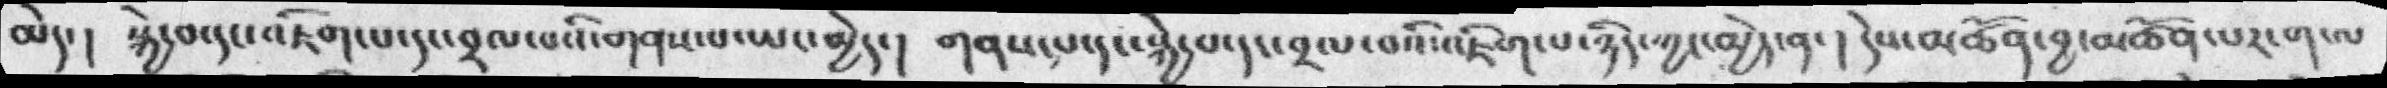མེད་།  སྐྱེ་བ་དང་འཇིག་པ་དང་བྲལ་པའི་གནས་པ་ཡང་མྱེད་།  གནས་པ་དང་སྐྱེ་བ་དང་བྲལ་བའི་འཇིག་པ་ཉིད་ཀྱང་མྱེད་ན་། དེས་མཚོན་བྱ་མཚོན་པར་ག་ལ
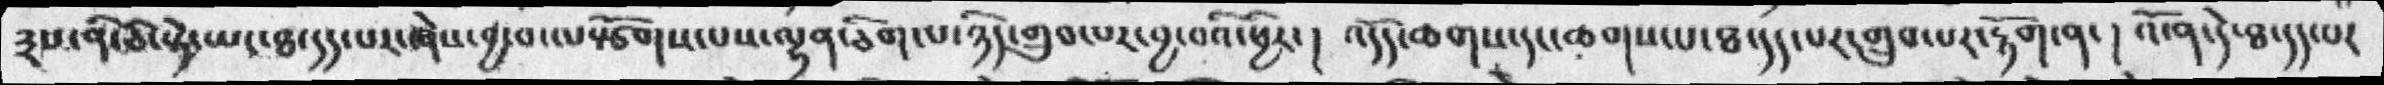༣པ་ནི་ཅི་སྟེ་ཡང་ཐ་དད་པར་ཞེས་བྱ་བ་ལསྩོགས་པས་ལྷན་ཅིག་པ་ཉིད་གྲུབ་པར་བྱ་བའི་ཕྱིར་།  འདོད་ཆགས་དང་ཆགས་པ་ཐ་དད་པར་གྲུབ་པར་རྟོག་ན་།  འོ་ན་དེ་ཐ་དད་པར
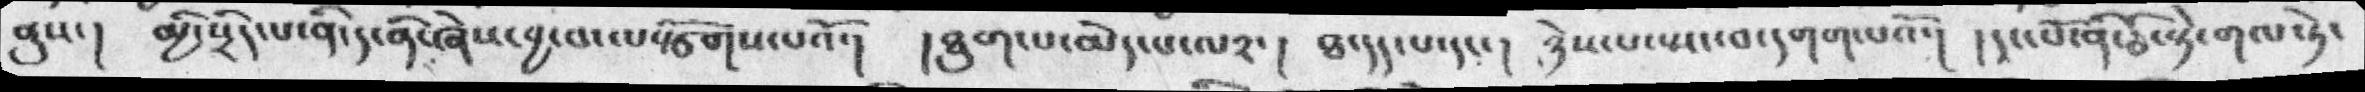ནུས་།  མྱི་སྲིད་པ་ནི་ད་ནི་ཞེས་བྱ་བ་ལསྩོགས་པའོ་།  །ཐུག་པ་མེད་པ་ལ༢་།  ཐ་དད་པ་དང་།  ཉེས་པ་སྤང་བ་དགག་པའོ་།  །དང་པོ་ནི་ཅི་སྟེ་གལ་ཏེ་
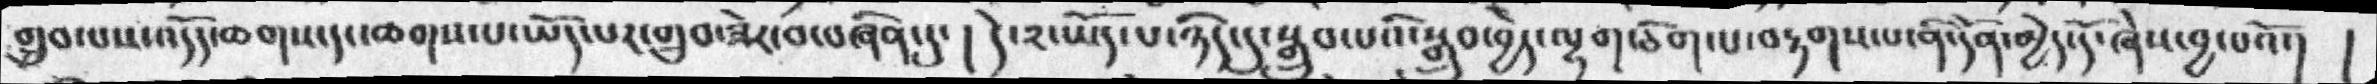གྲུབ་པས་འདོད་ཆགས་དང་ཆགས་པ་ཡོད་པར་གྲུབ་ཟེར་བ་བཞིན་དུ་ ། དེ་༢་ཡོད་པ་ཉིད་དུ་སྒྲུབ་པའི་སྒྲུབ་བྱེད་ལྷག་ཅིག་པ་བརྟགས་པ་ནི་དོན་མྱེད་དོ་ཞེས་བྱ་བའོ་།  །
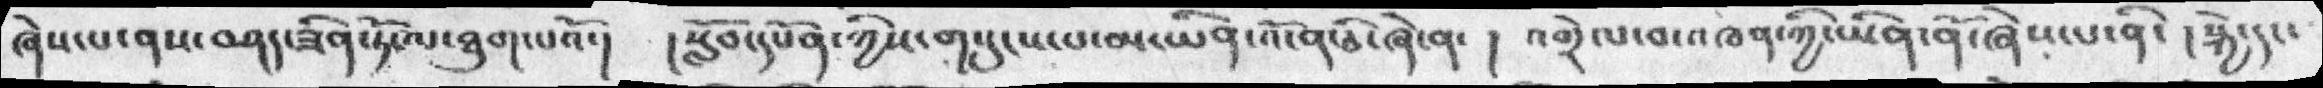ཞེས་པ་ནས་བཤད་ཟིན་ཏོ་ལ་ཐུག་པའོ་།   །སློབ་དཔོན་ཀྱིས་གསུངས་པ་མ་ཡིན་འོ་ན་ཅི་ཞེ་ན་  ། འགྲེལ་བ་འཁན་ཀྱི་ཡིན་ནོ་ཞེས་པ་ནི་ ། སྐྱེ་དང་
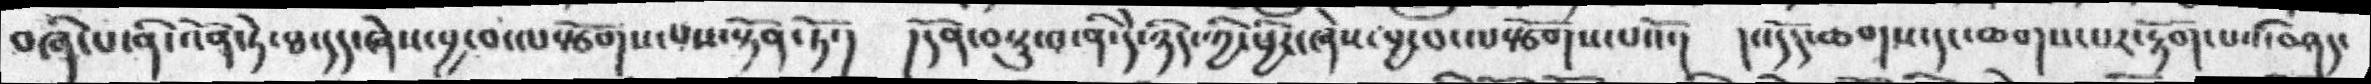བཞི་པ་ནི་འོན་ཏེ་ཐ་དད་ཞེས་བྱ་བ་ལསྩོགས་པས་སྟོན་ཏོ་།    །དོན་བསྡུ་བ་ནི་དེ་ཉིད་ཀྱི་ཕྱིར་ཞེས་བྱ་བ་ལསྩོགས་པའོ་།  །འདོད་ཆགས་དང་ཆགས་པར་རྟོག་པའི་བཤད་
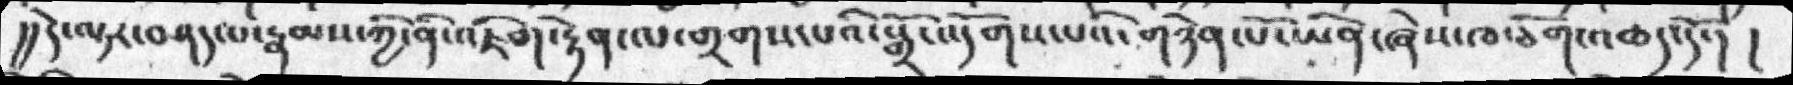།།དེ་ལྟར་བཤད་པ་རྣམས་ཀྱི་ནི་འཇིག་རྟེན་ལ་གྲགས་པའི་སྒྲོ་འདོགས་པའི་གཉེན་པོ་ཡིན་ཞེས་ཁ་ཅིག་འཆད་དོ་། །
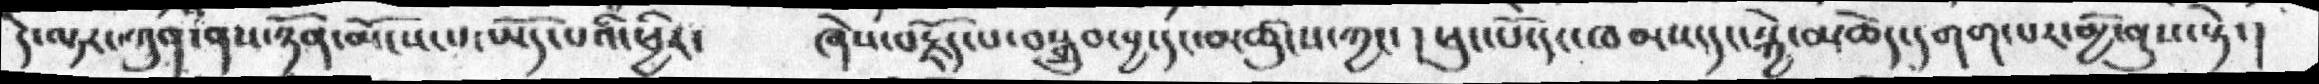དེ་ལྟར་ཀུན་ནས་ཉོན་མོངས་པ་ཡོད་པའི་ཕྱིར་  ཞེས་བརྗོད་པ་བསྒྲུབ་བྱ་དང་མཚུངས་ཀྱང་ །  ཕུང་པོ་དང་ཁམས་དང་སྐྱེ་མཆེད་དགག་པར་མྱི་ནུས་སྟེ་།
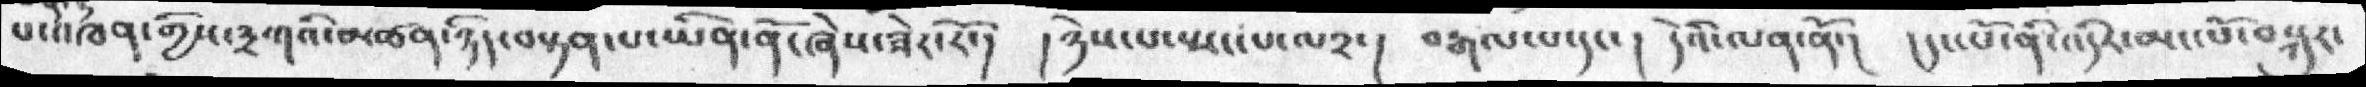པ་འཁན་གྱིས་༣གའི་མཚན་ཉིད་བསྟན་པ་ཡིན་ནོ་ཞེས་ཟེར་རོ་།  ། ཉེས་པ་སྤང་པ་ལ༢་།  བརྒལ་པ་དང་།  དེའི་ལན་ནོ་།  །དང་པོ་ནི་འདིར་མང་པོ་བསྐུར་
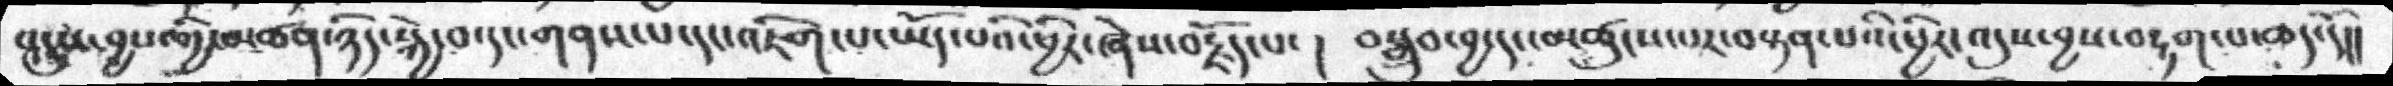འདུས་བྱས་གྱི་མཚན་ཉིད་སྐྱེ་བ་དང་གནས་པ་དང་འཇིག་པ་ཡོད་པའི་ཕྱིར་ཞེས་བརྗོད་པ་ །  བསྒྲུབ་བྱ་དང་མཚུངས་པར་བསྟན་པའི་ཕྱིར་འདུས་བྱས་བརྟག་པ་ཆད་དོ།།
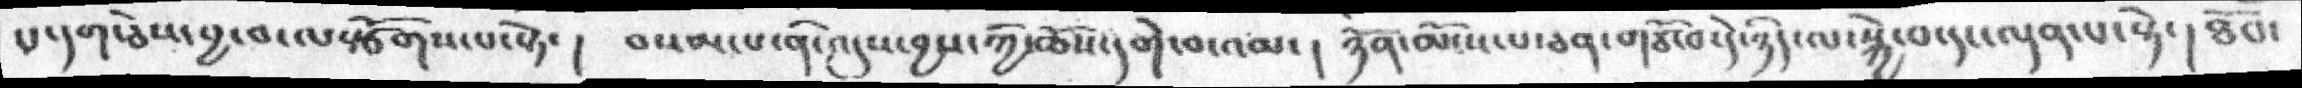པ་དག་ཅེས་བྱ་བ་ལསྩོགས་པ་སྟེ་ །  བསམ་པ་ནི་འདུས་བྱས་ཀྱི་ཆོས་དགེ་བ་འམ་ ། ཉོན་མོངས་པ་ཅན་གཙོ་བ་དེ་ཉིད་ལ་སྐྱེ་བ་དང་ལྡན་པ་སྟེ་།  ཐོབ་
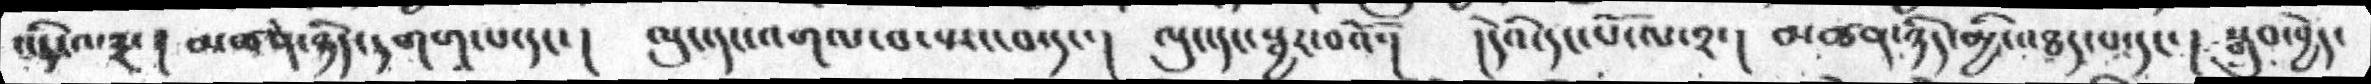འདི་ལ༣་།  མཚན་ཉིད་དགག་པ་དང་།  ལུང་དང་འགལ་བ་སྤང་བ་དང་།  ལུང་དང་སྦྱར་བའོ་།  །དེའི་དང་པོ་ལ་༢་།  མཚན་ཉིད་མྱི་འཐད་པ་དང་།  སྒྲུབ་བྱེད་
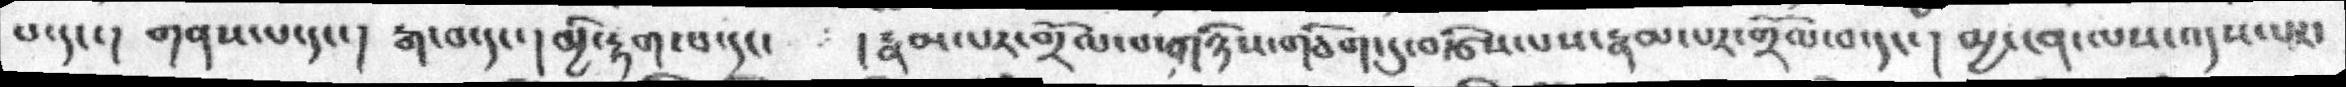པ་དང་།  གནས་པ་དང་།  རྒ་བ་དང་།  མྱི་རྟག་པ་དང་   །རྣམ་པར་གྲོལ་པ་གཉིས་གཅིག་དུ་བརྩིས་པས་རྣམ་པར་གྲོལ་བ་དང་།  མྱ་ངན་ལས་འདས་པར་
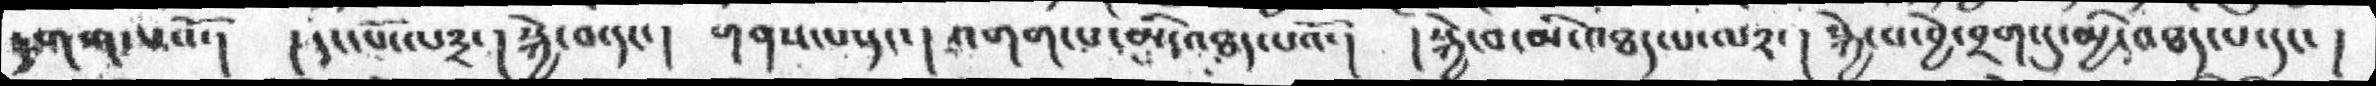དགག་པའོ་།  ། དང་པོ་ལ༣་ ། སྐྱེ་བ་དང་། གནས་པ་དང་།  འགག་པ་མིད་འཐད་པའོ་།  །སྐྱེ་བ་མི་འཐད་པ་ལ༢་ །  སྐྱེ་བ་བྱེ་བྲག་དུ་མྱི་འཐད་པ་དང་  །
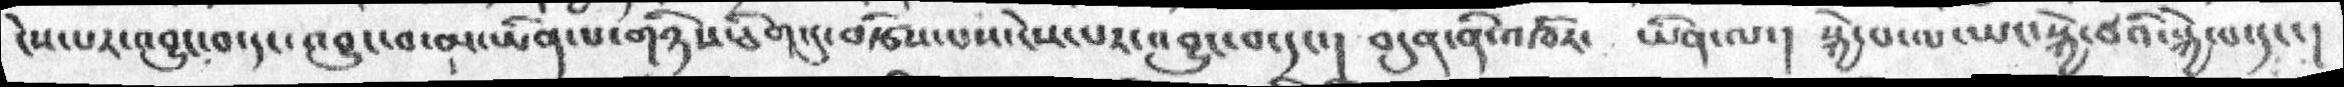ངེས་པར་འབྱུང་བ་དང་འབྱུང་བ་མ་ཡིན་པ་གཉིས་ཅིག་དུ་བརྩིས་པས་ངེས་པར་འབྱུང་བ་དང་། བདུན་ནི་འཁོར་  ཡིན་ལ་།  སྐྱེ་པ་ལ་ཡང་སྐྱེ་བའི་སྐྱེ་པ་དང་།
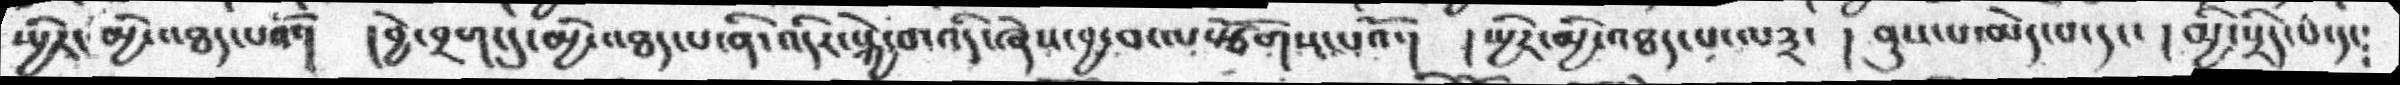སྤྱིར་མྱི་འཐད་པའོ་།  །བྱེ་བྲག་དུ་མྱི་འཐད་པ་ནི་འདིར་སྐྱེ་བ་འདི་ཞེས་བྱ་བ་ལསྩོགས་པའོ་།  །སྤྱིར་མྱི་འཐད་པ་ལ༣་ ། ནུས་པ་མེད་པ་དང་ ། མྱི་སྲིད་པ་དང༴
